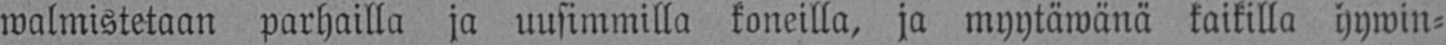walmistetaan parhailla ja uusimmilla koneilla, ja myytäwänä kaikilla hywin-
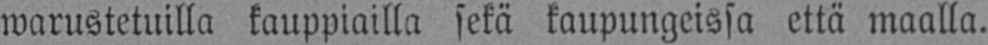warustetuilla kauppiailla sekä kaupungeissa että maalla.
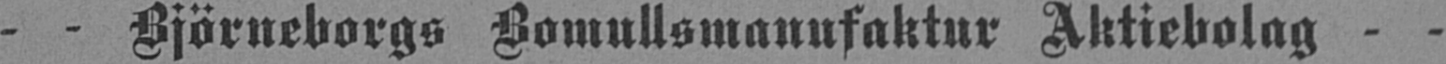- - Björneborgs Bomullsmanufaktur Aktiebolag - -
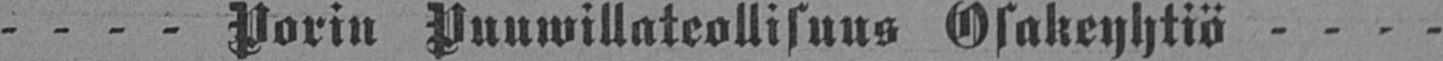- - - Porin Puuwillateollisuus Osakeyhtiö - - -
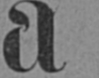aGROS
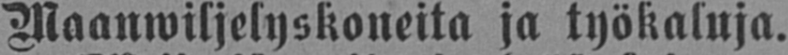Maanwiljelyskoneita ja työkaluja.
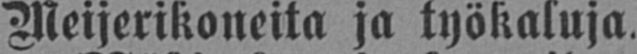Meijerikoneita ja työkaluja.
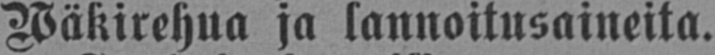Wäkirehua ja lannoitusaineita.
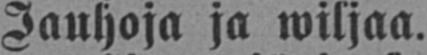Jauhoja ja wiljaa.
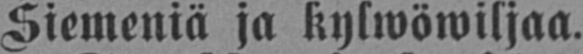Siemeniä ja kylwöwiljaa.
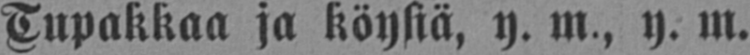Tupakkaa ja köysiä, y. m., y. m.
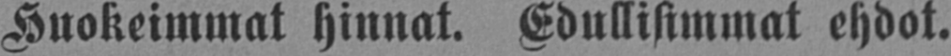Huokeimmat hinnat. Edullisimmat ehdot.
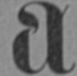aGROS
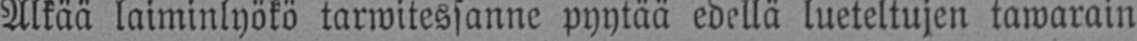Älkää laiminlyökö tarwitessanne pyytää edellä lueteltujen tawarain
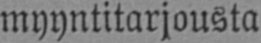myyntitarjousta
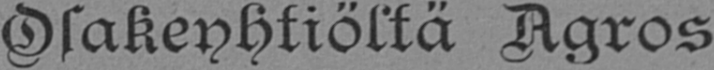Osakeyhtiöltä Agros
